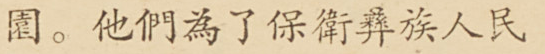園。他們為了保衛彝族人民
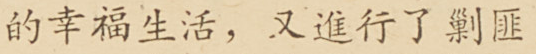的幸福生活，又進行了剿匪
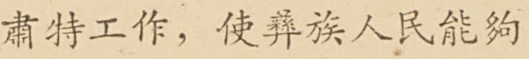肅特工作，使彝族人民能夠
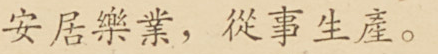安居樂業，從事生產。
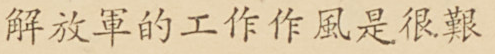解放軍的工作作風是很艱
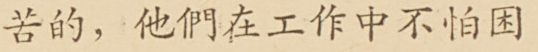苦的，他們在工作中不怕困
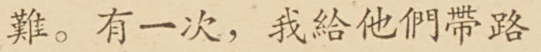難。有一次，我給他們帶路
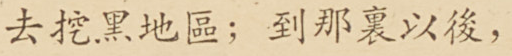去挖黑地區；到那裏以後，
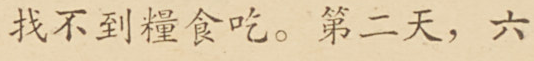找不到糧食吃。第二天，六
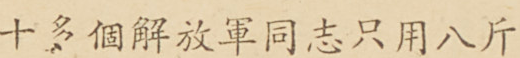十多個解放軍同志只用八斤
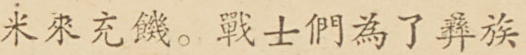米來充饑。戰士們為了彝族
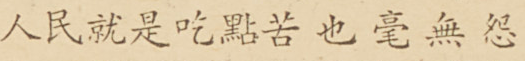人民就是吃點苦也毫無怨
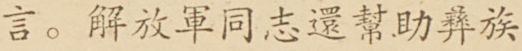言。解放軍同志還幫助彝族
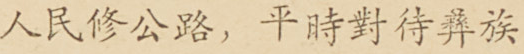人民修公路，平時對待彝族
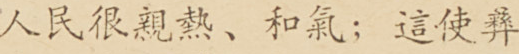人民很親熱、和氣；這使彝
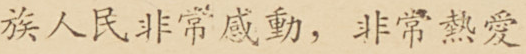族人民非常感動，非常熱愛
